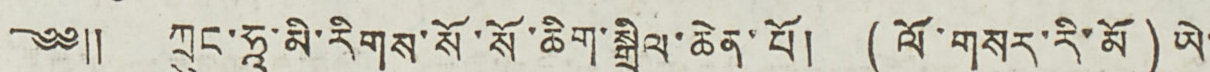༄༅༎ ཀྲུང་ཧཱ་མི་རིགས་སོ་སོ་ཆིག་སྒྲིལ་ཆེན་པོ། (ལོ་གསར་རི་མོ) ཡེ་
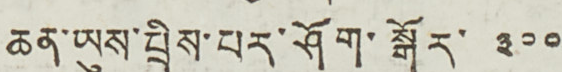ཆན་ཡུས་བྲིས་པར་ཤོག་སྒོར་ ༣༠༠
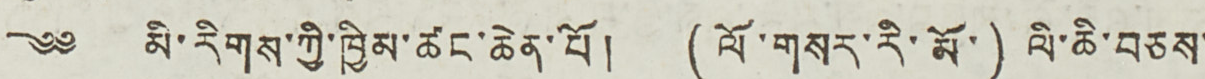༄༅༎ མི་རིགས་ཀྱི་ཁྱིམ་ཚང་ཆེན་པོ། (ལོ་གསར་རི་མོ་) ལི་ཆི་བཅས་
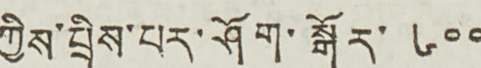ཀྱིས་བྲིས་པར་ཤོག་སྒོར་ ༦༠༠
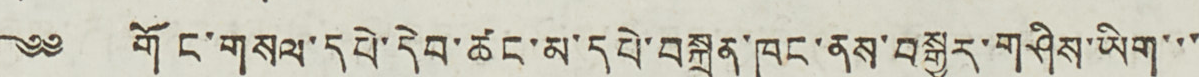༄༅༎ གོང་གསལ་དཔེ་དེབ་ཚང་མ་དཔེ་བསྐྲུན་ཁང་ནས་བསྒྱུར་གཤིས་ཡིག་་་
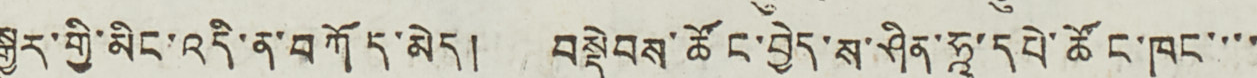སྒྱུར་གྱི་མིང་འདི་ན་བཀོད་མེད། བསྡེབས་ཚོང་བྱེད་ས་ཤིན་ཧཱ་དཔེ་ཚོང་ཁང་་་་
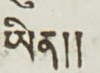ཡིན༎
